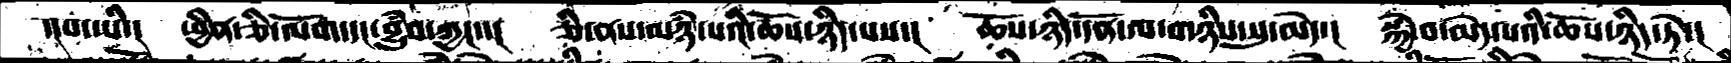་།པ་ཡི་།  ཕྱིན་ཅི་ལོག་དང་བྱུཾབ་ཀྱང་་།  ཅི་ནས་མཉཾ་པའི་ཆོས་ཉིད་པས་།  ཆོས་ཉིད་དོན་ལ་གཉིས་སུ་མེད་།  སྐྱེ་བ་མེད་པའི་ཆོས་ཉིད་ཏེ་།
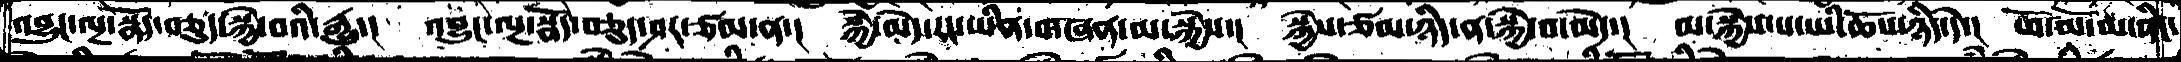འབྱུང་ལྔ་སྣོད་བཅུད་སྐྱེ་བའི་རྒྱུ་།   འབྱུང་ལྔ་སྣོད་བཅུད་ཤར་ཙམ་ན་།  སྐྱེ་མེད་རང་ཡིན་གཞན་མ་སྐྱེས་།   སྐྱེེས་ཙམ་ཉིད་ན་སྐྱེ་བ་མེད་།   མ་སྐྱེས་པ་ཡིན་ཆོས་ཉིད་དེ་།  ཕོ་མོ་མ་ནིང་
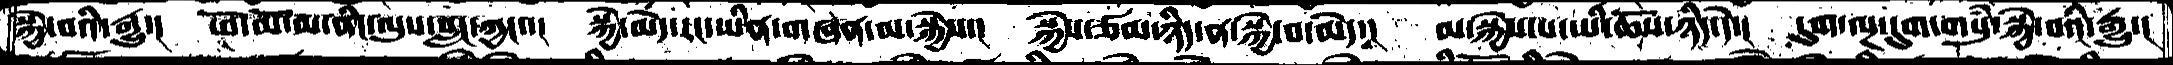སྐྱེ་བའི་རྒྱུ་།   ཕོ་མོ་མ་ནིང་ལུས་བླང་ཀྱང་་།   སྐྱེ་མེད་རང་ཡིན་གཞན་མ་སྐྱེས་།   སྐྱེས་ཙམ་ཉིད་ན་སྐྱེ་བ་མེད་།   མ་སྐྱེས་པ་ཡི་ཆོས་ཉིད་དེ་།   དུག་ལྔ་དུག་གསུཾ་སྐྱེ་བའི་རྒྱུ་།
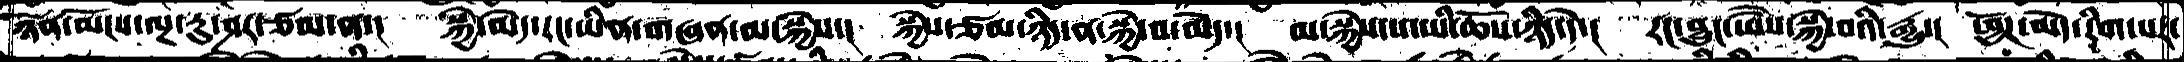ཉོན་མོངས་ལྔ་རུ་ཤར་ཙམ་ན་།   སྐྱེ་མེད་རང་ཡིན་གཞན་མ་སྐྱེས་།   སྐྱེས་ཙམ་ཉིད་ན་སྐྱེ་བ་མེད་།   མ་སྐྱེས་པ་ཡི་ཆོས་ཉིད་དེ་།   རང་བྱུང་ཡཻས་སྐྱེ་བའི་རྒྱུ་།  ཕྱོཌ་མེད་རིག་པར་
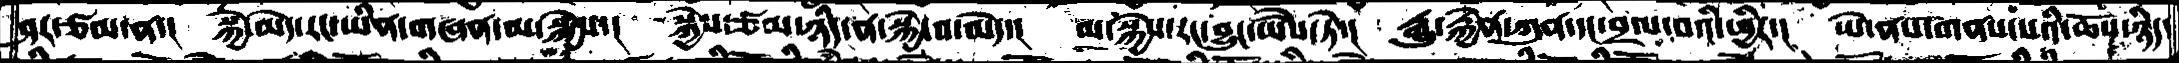ཤར་ཙམ་ན་།   སྐྱེ་མེད་རང་ཡིན་གཞན་མ་སྐྱེས་།   སྐྱེས་ཙམ་ཉིད་ན་སྐྱེ་བ་མེད་།   མ་སྐྱེས་རང་བྱུང་ཡཻས་ཏེ་།  རྒྱུ་རྐྱེན་ཀུན་དང་བྲལ་བའི་ཕྱིིར་།   ཡེ་ནས་གནས་པའི་ཆོས་ཉིད་
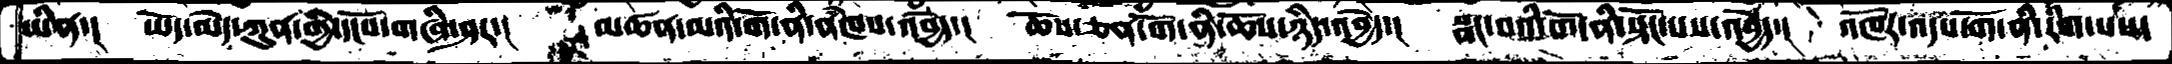ཡིན་།   ཡོད་མེད་ཀུན་གྱི་དངོས་གཞི་ཤར་།     མཚན་མའི་གོ་ནི་ནཾཁས་འབྱེད་།  ཆོས་ཅན་གོ་ནི་ཆོས་ཉིད་འབྱེད་།   སྣང་བའི་གོ་ནི་སྟོང་པས་འབྱེད་།   འཁོར་འདས་གོ་ནི་རིག་པས་
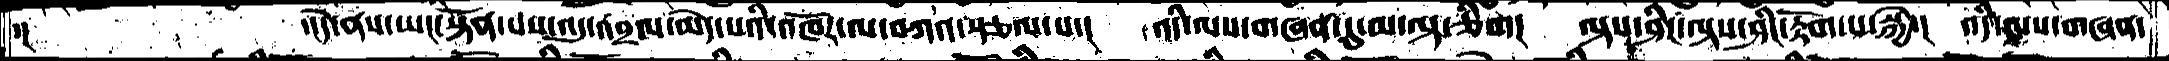་།      ་།དེ་ནས་ཡང་སྟོན་པས་འདུ་འབྲལ་མེད་པའི་འཁོར་ལ་བཀའ་སྩལ་པ་།  འདི་ལས་གཞན་དུ་མ་ལྟ་ཅིག།  ལྟས་ཤིང་ལྟས་ཤིང་རྟོག་པ་སྐྱེ་།  འདི་ལས་གཞན་
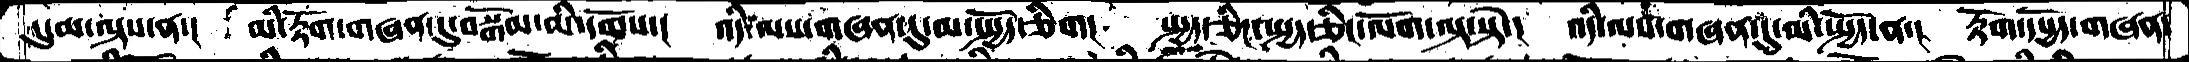དུ་མ་ལྟས་ན་།  མི་རྟོག་གཞན་དུ་བསྒོམ་མི་དགོས་།  འདི་ལས་གཞན་དུ་མ་སྤྱོད་ཅིག།  སྤྱད་ཅིང་སྤྱད་ཅིང་ལོག་ལྟ་སྟེ་།   འདི་ལས་གཞན་དུ་མི་སྤྱོད་ན་།  རྟོག་དཔྱོད་གཞན་
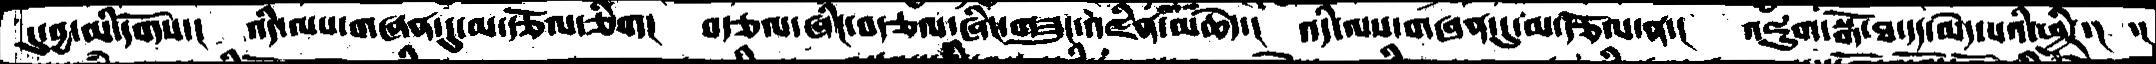དུ་བྱ་མི་དགོས་།  འདི་ལས་གཞན་དུ་མ་རྩོལ་ཅིག།  བརྩལ་ཞིང་བརྩལ་ཞིང་གཟུང་འཛིན་མཆེད་།  འདི་ལས་གཞན་དུ་མ་རྩོལ་ན་།  འཇུག་སྒོ་ཐ་དད་མེད་པའི་ཕྱིར་།   ་།
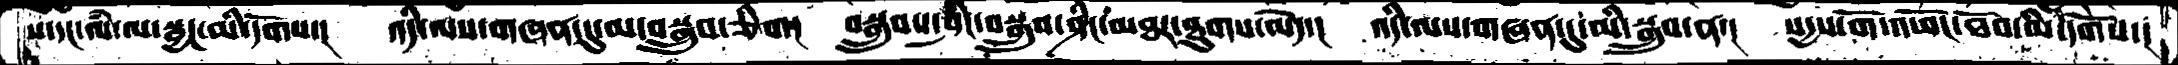ས་དང་ལཾ་ལ་སྦྱང་མི་དགོས་།  འདི་ལས་གཞན་དུ་མ་བསྒྲུབ་ཅིག།  བསྒྲུབས་ཤིང་བསྒྲུབ་ཤིང་མཐར་ཐུགས་མེད་།  འདི་ལས་གཞན་དུ་མི་སྒྲུབ་ན་། སདྱས་གོ་འཕོང་ཐོབ་མི་དགོས་།
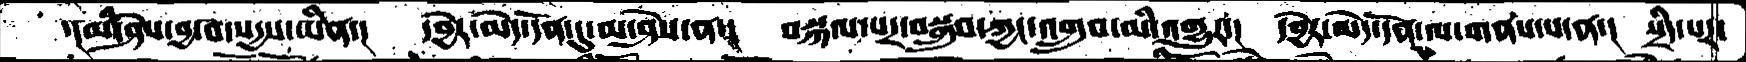་།མི་ཤེས་བྱ་བ་སདྱས་ཡིན་།  དབྱེར་མེད་དོན་དུ་མ་ཤེས་ན་།  བསྐལ་པར་བསྒྲུབ་ཀྱང་འགྲུབ་མི་འགྱུར་།  དབྱེར་མེད་དོན་ལ་གནས་པ་ན་།  སྲིད་པར་
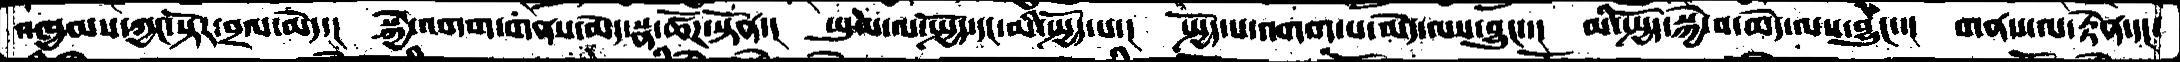འཁྱམས་ཀྱང་སྟོར་བྲལ་མེད་།  སྐྱེ་འགག་གནས་མེད་སྣ་ཚོཌ་སྟོན་།  ཡུལ་ལ་སྤྱོད་དང་མི་སྤྱོད་པ་།  སྤྱོད་པ་འགག་པ་མེད་ལས་བྱུང་་།  མི་སྤྱོད་སྐྱེ་བ་མེད་ལས་བྱུང་་།  གནས་ལ་རྟེན་དང་
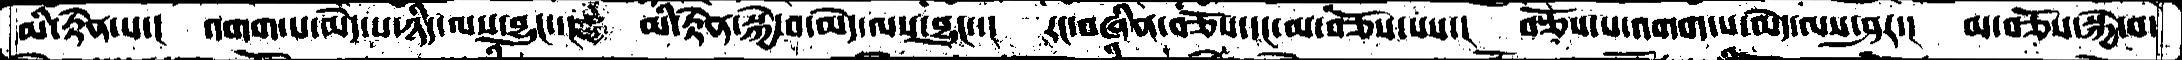མི་རྟེན་པ་།  འགག་པ་མེད་པ་ཉིད་ལས་བྱུང་་།  མི་རྟེན་སྐྱེ་བ་མེད་ལས་བྱུང་་།  རང་བཞིན་བཅོས་དང་མ་བཅོས་པས་།  བཅོས་པ་འགག་པ་མེད་ལས་ཤར་།   མ་བཅོས་སྐྱེ་བ་
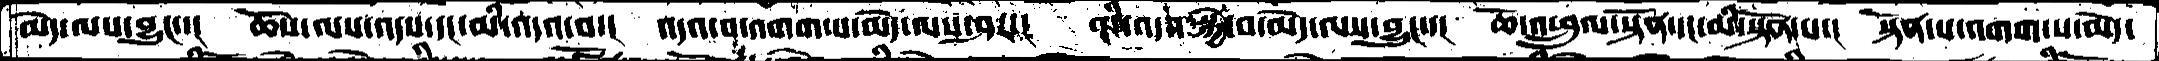མེད་ལས་བྱུང་་།  ཆོས་ལས་འདས་དང་མི་འདའ་བ་།  འདའ་བ་འགག་པ་མེད་ལས་ཤར་།   མི་འདས་སྐྱེ་བ་མེད་ལས་བྱུང་་།   ཆོ་འཕྲུལ་སྟོན་དང་མི་སྟོན་པ་།  སྟོན་པ་འགག་པ་མེད་
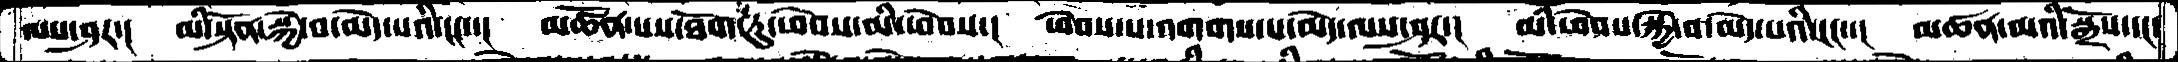ལས་ཤར་།  མི་སྟོན་སྐྱེ་བ་མེད་པའི་ངང་་།  མཚོན་པས་ཐོག་ཏུ་ཕེབས་མི་ཕེབས་།  ཕེབས་པ་འགགས་པ་མེད་ལས་ཤར་།  མི་ཕེབས་སྐྱེ་བ་མེད་པའི་ངང་་།  མཚན་མའི་སྒྲོས་དང་
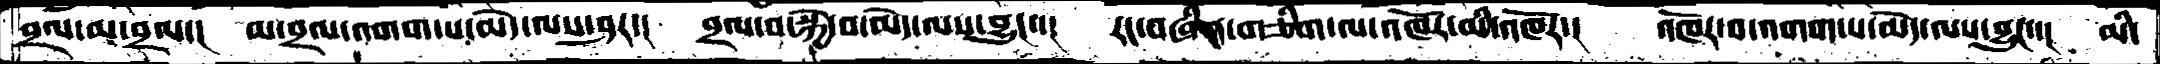བྲལ་མ་བྲལ་།  མ་བྲལ་འགག་པ་མེད་ལས་ཤར་།  བྲལ་བ་སྐྱེ་བ་མེད་ལས་བྱུང་་།  རང་བཞིན་གཅིག་ལ་འཁོར་མི་འཁོར་།  འཁོར་བ་འགག་པ་མེད་ལས་བྱུང་་། མི་
